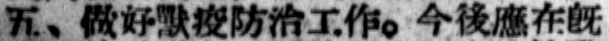五、做好獸疫防治工作。今後應在既
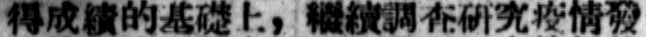得成績的基礎上，繼續調查研究疫情發
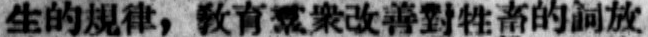生的規律，敎育羣衆改善對牲畜的飼放
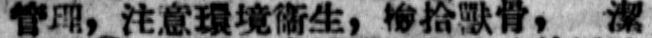管理，注意環境衛生，撿拾獸骨，清潔
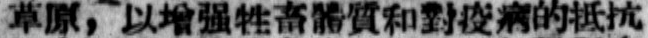草原，以增強牲畜體質和對疫病的抵抗
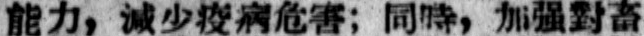能力，減少疫病危害；同時，加強對畜
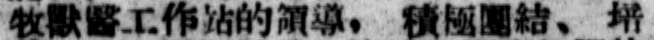牧獸醫工作站的領導， 積極團結、 培
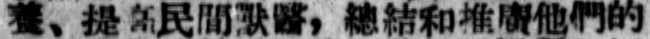養、提高民間獸醫，總結和推廣他們的
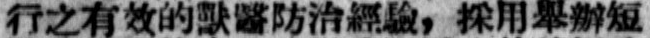行之有效的獸醫防治經驗，採用舉辦短
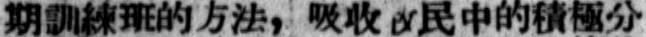期訓練班的方法，吸收牧民中的積極分
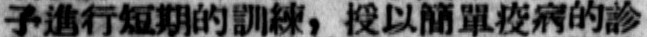子進行短期的訓練，授以簡單疫病的診
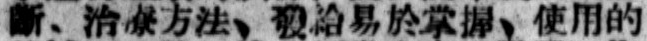斷、治療方法、發給易於掌握、使用的
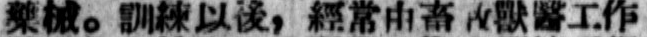藥械。訓練以後，經常由畜牧獸醫工作
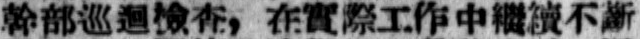幹部巡迴檢查，在實際工作中繼續不斷
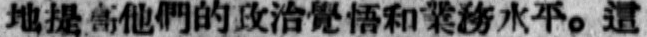地提高他們的政治覺悟和業務水平。這
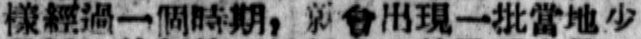樣經過一個時期，就會出現一批當地少
